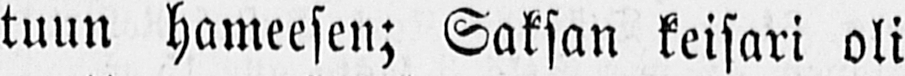tuun hameesen; Saksan keisari oli
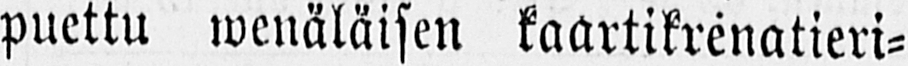puettu wenäläisen kaartikrenatieri-
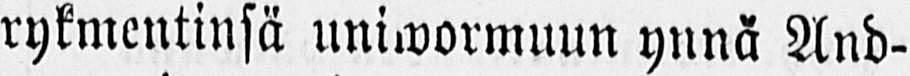rykmentinsä uniwormuun ynnä And-
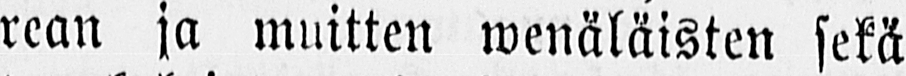rean ja muitten wenäläisten sekä
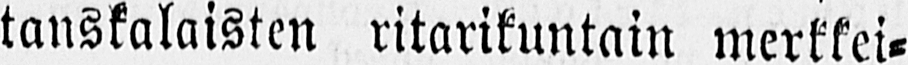tanskalaisten ritarikuntain merkkei-
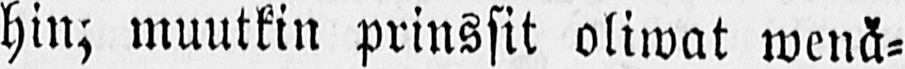hin; muutkin prinssit oliwat wenä-
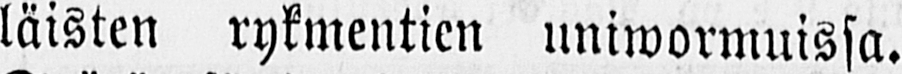läisten rykmentien uniwormuissa.
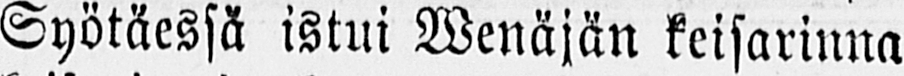Syötäessä istui Wenäjän keisarinna
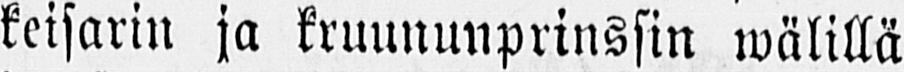keisarin ja kruununprinssin wälillä
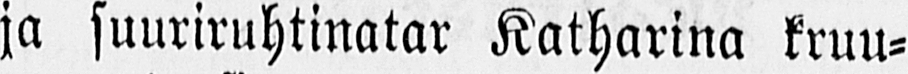ja suuriruhtinatar Katharina kruu-
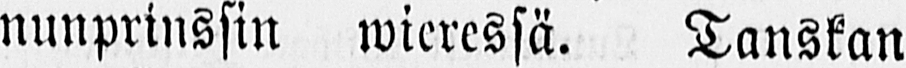nunprinssin wieressä. Tanskan
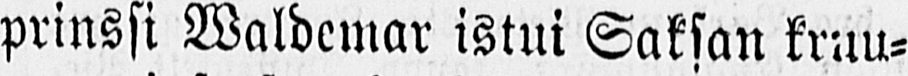prinssi Waldemar istui Saksan kruu-
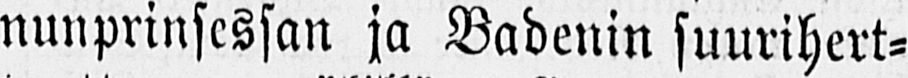nunprinsessan ja Badenin suurihert-
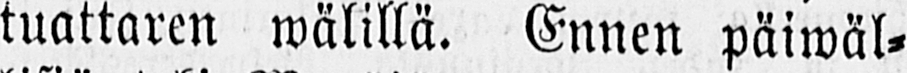tuattaren wälillä. Ennen päiwäl-
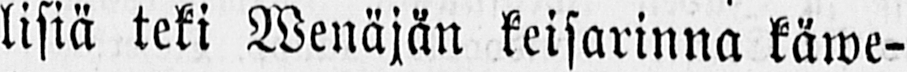lisiä teki Wenäjän keisarinna käwe-
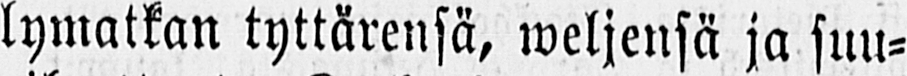lymatkan tyttärensä, weljensä ja suu-
